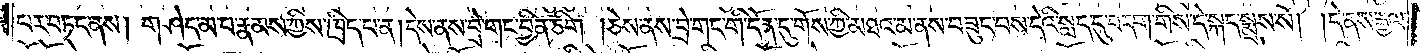པར་བཏང་ནས། གཤེད་མ་པ་རྣམས་ཀྱིས་ཁྲིད་པ་ན། དེས་ནས་བྲེ་གང་བྱིན་ཅིག །ཅེས་ནས་བྲེ་གང་གི་དོན་དུ་གོས་ཀྱི་མཐའ་མ་ནས་བཟུང་བས་དེའི་སླད་དུ་བདག་གིས་དེ་སྐད་སྨྲས་སོ། །དེ་ནས་རྒྱལ་
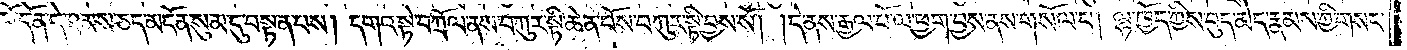པོ་དོན་དེ་ཐམས་ཅད་མངོན་སུམ་དུ་བསྟན་པས། དགའ་སྟེ་བཀྲོལ་ནས་བཀུར་སྟི་ཆེན་པོས་བཀུར་སྟི་བྱས་སོ། །དེ་ནས་རྒྱལ་པོ་ལ་ཕྱག་བྱས་ནས་གསོལ་པ། ལྷ་ཁྱོད་ཀྱིས་བུད་མེད་རྣམས་ཀྱི་གསང་
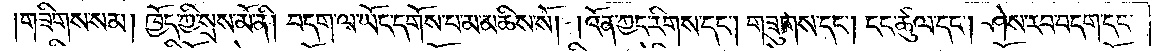གཟིགས་སམ། ཁྱོད་ཀྱི་སྲས་མོ་ནི། བདག་ལ་ཡོང་དགོས་པ་མ་མཆིས་སོ། །འོན་ཀྱང་རིགས་དང༌། གཟུགས་དང༌། ངང་ཚུལ་དང༌། ཤེས་རབ་བདག་དང་
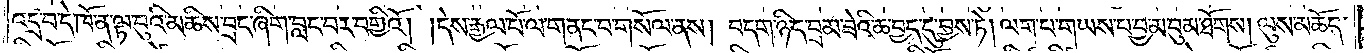འདྲ་བ་དེ་ཁོ་ན་ལྟ་བུའི་མཆིས་བྲང་ཞིག་བླང་བར་བགྱིའོ། །དེས་རྒྱལ་པོ་ལ་གནང་བ་གསོལ་ནས། བདག་ཉིད་བྲམ་ཟེའི་ཆ་བྱད་དུ་བྱས་ཏེ། ལག་པ་གཡས་པ་བྱ་མ་བུམ་ཐོགས། ལུས་མཆོད་
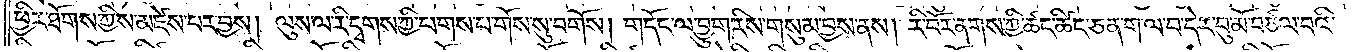ཕྱིར་ཐོགས་ཀྱིས་མཛེས་པར་བྱས། ལུས་ལ་རི་དྭགས་ཀྱི་པགས་པ་གོས་སུ་བགོས། གདོང་ལ་བྱུག་རིས་གསུམ་བྱས་ནས། རི་བོར་ནགས་ཀྱི་ཚང་ཚིང་ཅན་ག་ལ་བ་དེར་བུ་མོ་བཙལ་བའི་
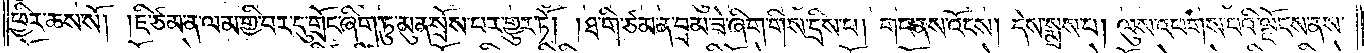ཕྱིར་ཆས་སོ། །ཇི་ཙམ་ན་ལམ་གྱི་བར་དུ་གྲོང་ཞིག་ཏུ་མུན་སྲོས་པར་གྱུར་ཏོ། །ཐ་གི་ཙམ་ན་བྲམ་ཟེ་ཞིག་གིས་དྲིས་པ། གང་ནས་འོངས། དེས་སྨྲས་པ། ལུས་འཕགས་པའི་ལྗོངས་ནས་
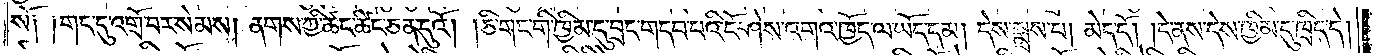སོ༑ ༑གང་དུ་འགྲོ་བར་སེམས། ནགས་ཀྱི་ཚང་ཚིང་ཅན་དུའོ། །ཅི་གང་གི་ཁྱིམ་དུ་བྲང་གདབ་པའི་ངོ་ཤེས་འགའ་ཁྱོད་ལ་ཡོད་དམ། དེས་སྨྲས་པ། མེད་དོ། །དེ་ནས་དེས་ཁྱིམ་དུ་ཁྲིད་དེ།
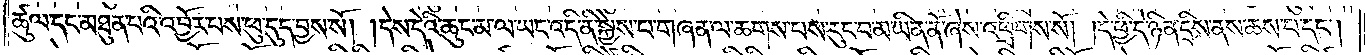ཚུལ་དང་མཐུན་པའི་འབྱོར་པས་ཕུ་དུད་བྱས་སོ། །དེས་དེའི་ཆུང་མ་ལ་ཡང་འདི་ནི་སྐྱེས་པ་གཞན་ལ་ཆགས་པས་རུང་བ་མ་ཡིན་ནོ་ཞེས་འཕྲིགས་སོ། །དེ་ཕྱི་དེ་ཉིན་དྲིས་ནས་ཆས་པ་དང༌།
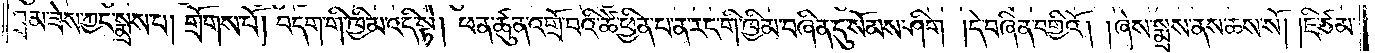བྲམ་ཟེས་ཀྱང་སྨྲས་པ། གྲོགས་པོ། བདག་གི་ཁྱིམ་འདི་སྟེ། ཕན་ཚུན་འགྲོ་བའི་ཚེ་ཕྱིན་པ་ན་རང་གི་ཁྱིམ་བཞིན་དུ་སོམས་ཤིག །དེ་བཞིན་བགྱིའོ། །ཞེས་སྨྲས་ནས་ཆས་སོ། །ཇི་ཙམ་
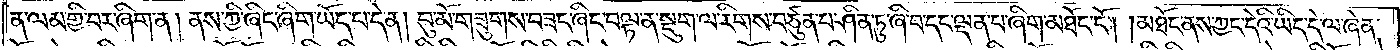ན་ལམ་གྱི་བར་ཞིག་ན། ནས་ཀྱི་ཞིང་ཞིག་ཡོད་པ་དེ་ན། བུ་མོ་གཟུགས་བཟང་ཞིང་བལྟ་ན་སྡུག་ལ་རིགས་བཙུན་པ་ཤིན་ཏུ་ཞི་བ་དང་ལྡན་པ་ཞིག་མཐོང་ངོ༌། །མཐོང་ནས་ཀྱང་དེའི་ཡིད་དེ་ལ་ཞེན་
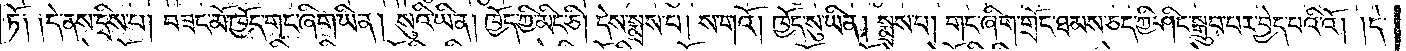ཏོ༑ ༑དེ་ནས་དྲིས་པ། བཟང་མོ་ཁྱོད་གང་ཞིག་ཡིན། སུའི་ཡིན། ཁྱོད་ཀྱི་མིང་ཅི། དེས་སྨྲས་པ། ས་གའོ། ཁྱོད་སུ་ཡིན། སྨྲས་པ། གང་ཞིག་གྲོང་ཐམས་ཅད་ཀྱི་ཤིང་སྒྲུབ་པར་བྱེད་པའིའོ། །དེ་
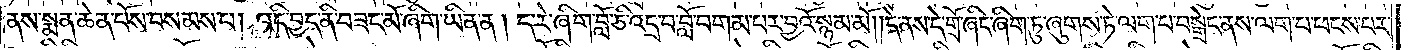ནས་སྨན་ཆེན་པོས་བསམས་པ། འདི་བྱད་ནི་བཟང་མོ་ཞིག་ཡིན་ན། ད་རེ་ཞིག་བློ་ཅི་འདྲ་བ་བློ་བགམ་པར་བྱའོ་སྙམ་མོ། །དེ་ནས་དེ་གྲོ་ཞིང་ཞིག་ཏུ་ཞུགས་ཏེ་ལག་པ་བསྒྲེང་ནས་ལག་པ་ཕངས་པར་
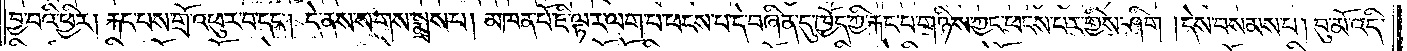བྱ་བའི་ཕྱིར། རྐང་པས་གྲོ་འཕུར་བ་དང༌། དེ་ནས་ས་གས་སྨྲས་པ། མཁན་པོ་ཇི་ལྟར་ལག་པ་ཕངས་པ་དེ་བཞིན་དུ་ཁྱོད་ཀྱི་རྐང་པ་གཉིས་ཀྱང་ཕངས་པར་གྱིས་ཤིག །དེས་བསམས་པ། བུ་མོ་འདི་
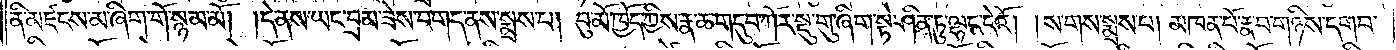ནི་མཛངས་མ་ཞིག་གོ་སྙམ་མོ། །དེ་ནས་ཡང་བྲམ་ཟེས་བགད་ནས་སྨྲས་པ། བུ་མོ་ཁྱོད་ཀྱིས་རྣ་ཆ་གདུབ་ཀོར་སྡུ་གུ་ཞིག་སྟེ་ཤིན་ཏུ་ལྷང་དེའོ། །ས་གས་སྨྲས་པ། མཁན་པོ་རྣ་བ་གཉིས་དགབ་
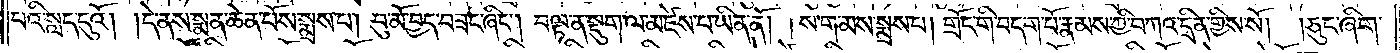པའི་སླད་དུའོ། །དེ་ནས་སྨན་ཆེན་པོས་སྨྲས་པ། བུ་མོ་བྱད་བཟང་ཞིང་།བལྟ་ན་སྡུག་ལ་མཛེས་པ་ཡིན་ནོ། །ས་ག་མས་སྨྲས་པ། གྲོང་གི་བདག་པོ་རྣམས་ཀྱི་བཀའ་དྲིན་གྱིས་སོ། །ཅུང་ཞིག་
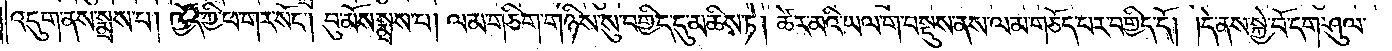འདུག་ནས་སྨྲས་པ། ཁྱོད་ཀྱི་ཕ་གར་སོང༌། བུ་མོས་སྨྲས་པ། ལམ་གཅིག་གཉིས་སུ་བགྱིད་དུ་མཆིས་ཏེ། ཚེར་མའི་ཡལ་ག་བསྡུས་ནས་ལམ་གཅོད་པར་བགྱིད་དོ། །དེ་ནས་སྐྱེ་བོ་དག་ཤུལ་
